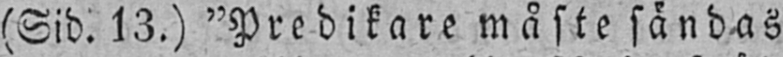(Sid. 13.) "Predikare måste sändas
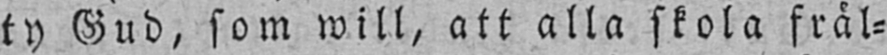ty Gud, som will, att alla skola fräl-
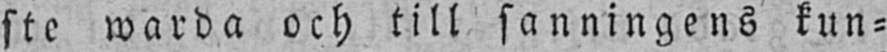ste warda och till sanningens kun-
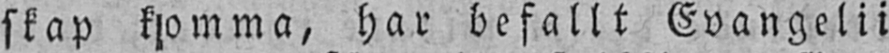skap komma, har befallt Evangelii
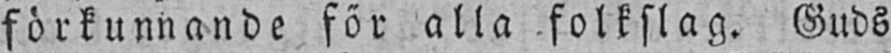förkunnande för alla folkslag. Guds
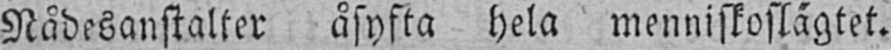Nådesanstalter åsyfta hela menniskoslägtet.
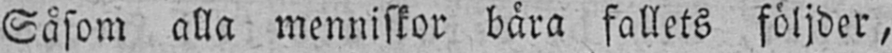Såsom alla menniskor bära fallets följder,
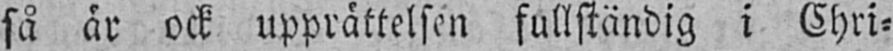så är ock upprättelsen fullständig i Chri-
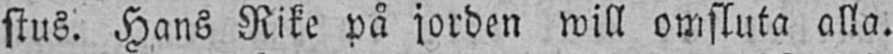stus. Hans Rike på jorden will omsluta alla.
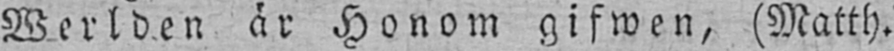Werlden är Honom gifwen, (Matth.
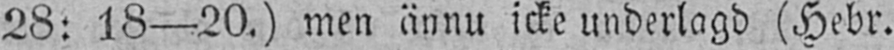28: 18-2o.) men ännu icke underlagd (Hebr.
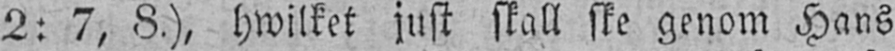2: 7, 8.), hwilket just skall ske genom Hans
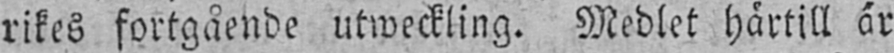rikes fortgående utweckling. Medlet härtill är
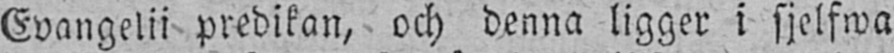Evangelii predikan, och denna ligger i sjelfwa
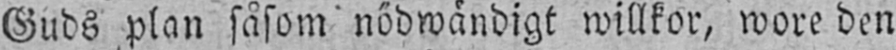Guds plan såsom nödwändigt willkor, wore den
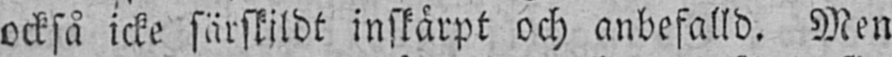också icke särskildt inskärpt och anbefalld. Men
